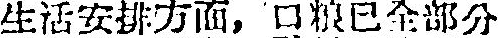生活安排方面，口粮已全部分
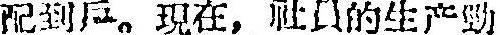配到户。現在，社員的生产勁
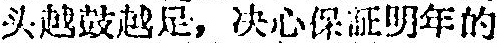头越鼓越足，決心保証明年的
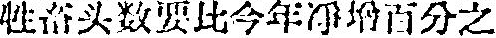牲畜头数要比今年淨增百分之
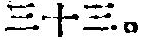三十三。
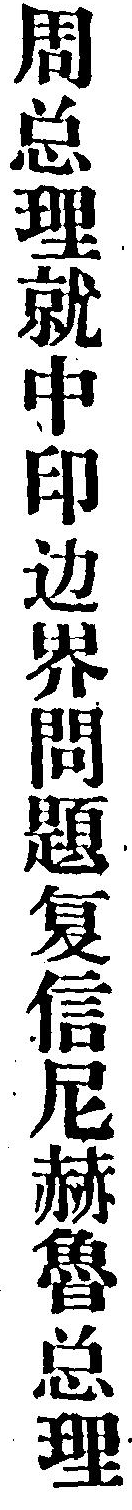周总理就中印边界問題复信尼赫魯总理
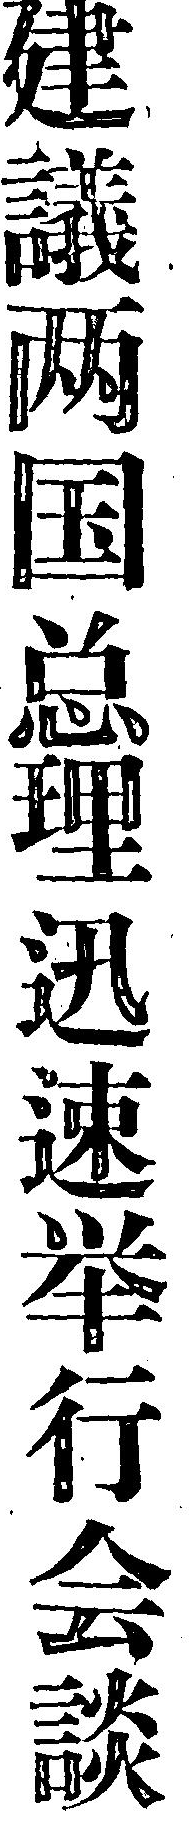建議两国总理迅速举行会談
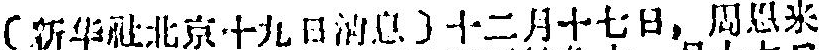（新华社北京十九日消息）十二月十七日，周恩来
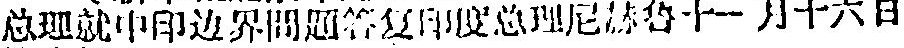总理就中印边界問題答复印度总理尼赫魯十一月十六日
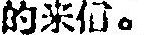的来信。
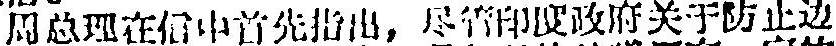周总理在信中首先指出，尽管印度政府关于防止边
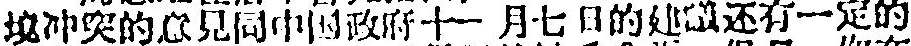境冲突的意見同中国政府十一月七日的建議还有一定的
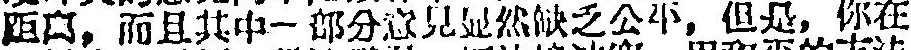距离，而且其中一部分意見显然缺乏公平，但是，你在
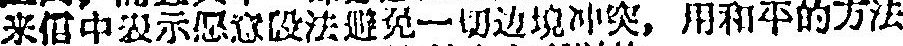来信中表示愿意設法避免一切边境冲突，用和平的方法
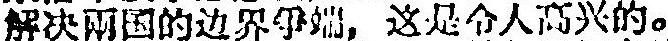解决两国的过界爭端，这是令人高兴的。
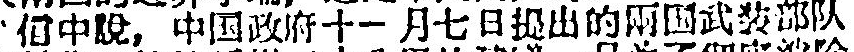信中說，中国政府十一月七日提出的两国武装部队
